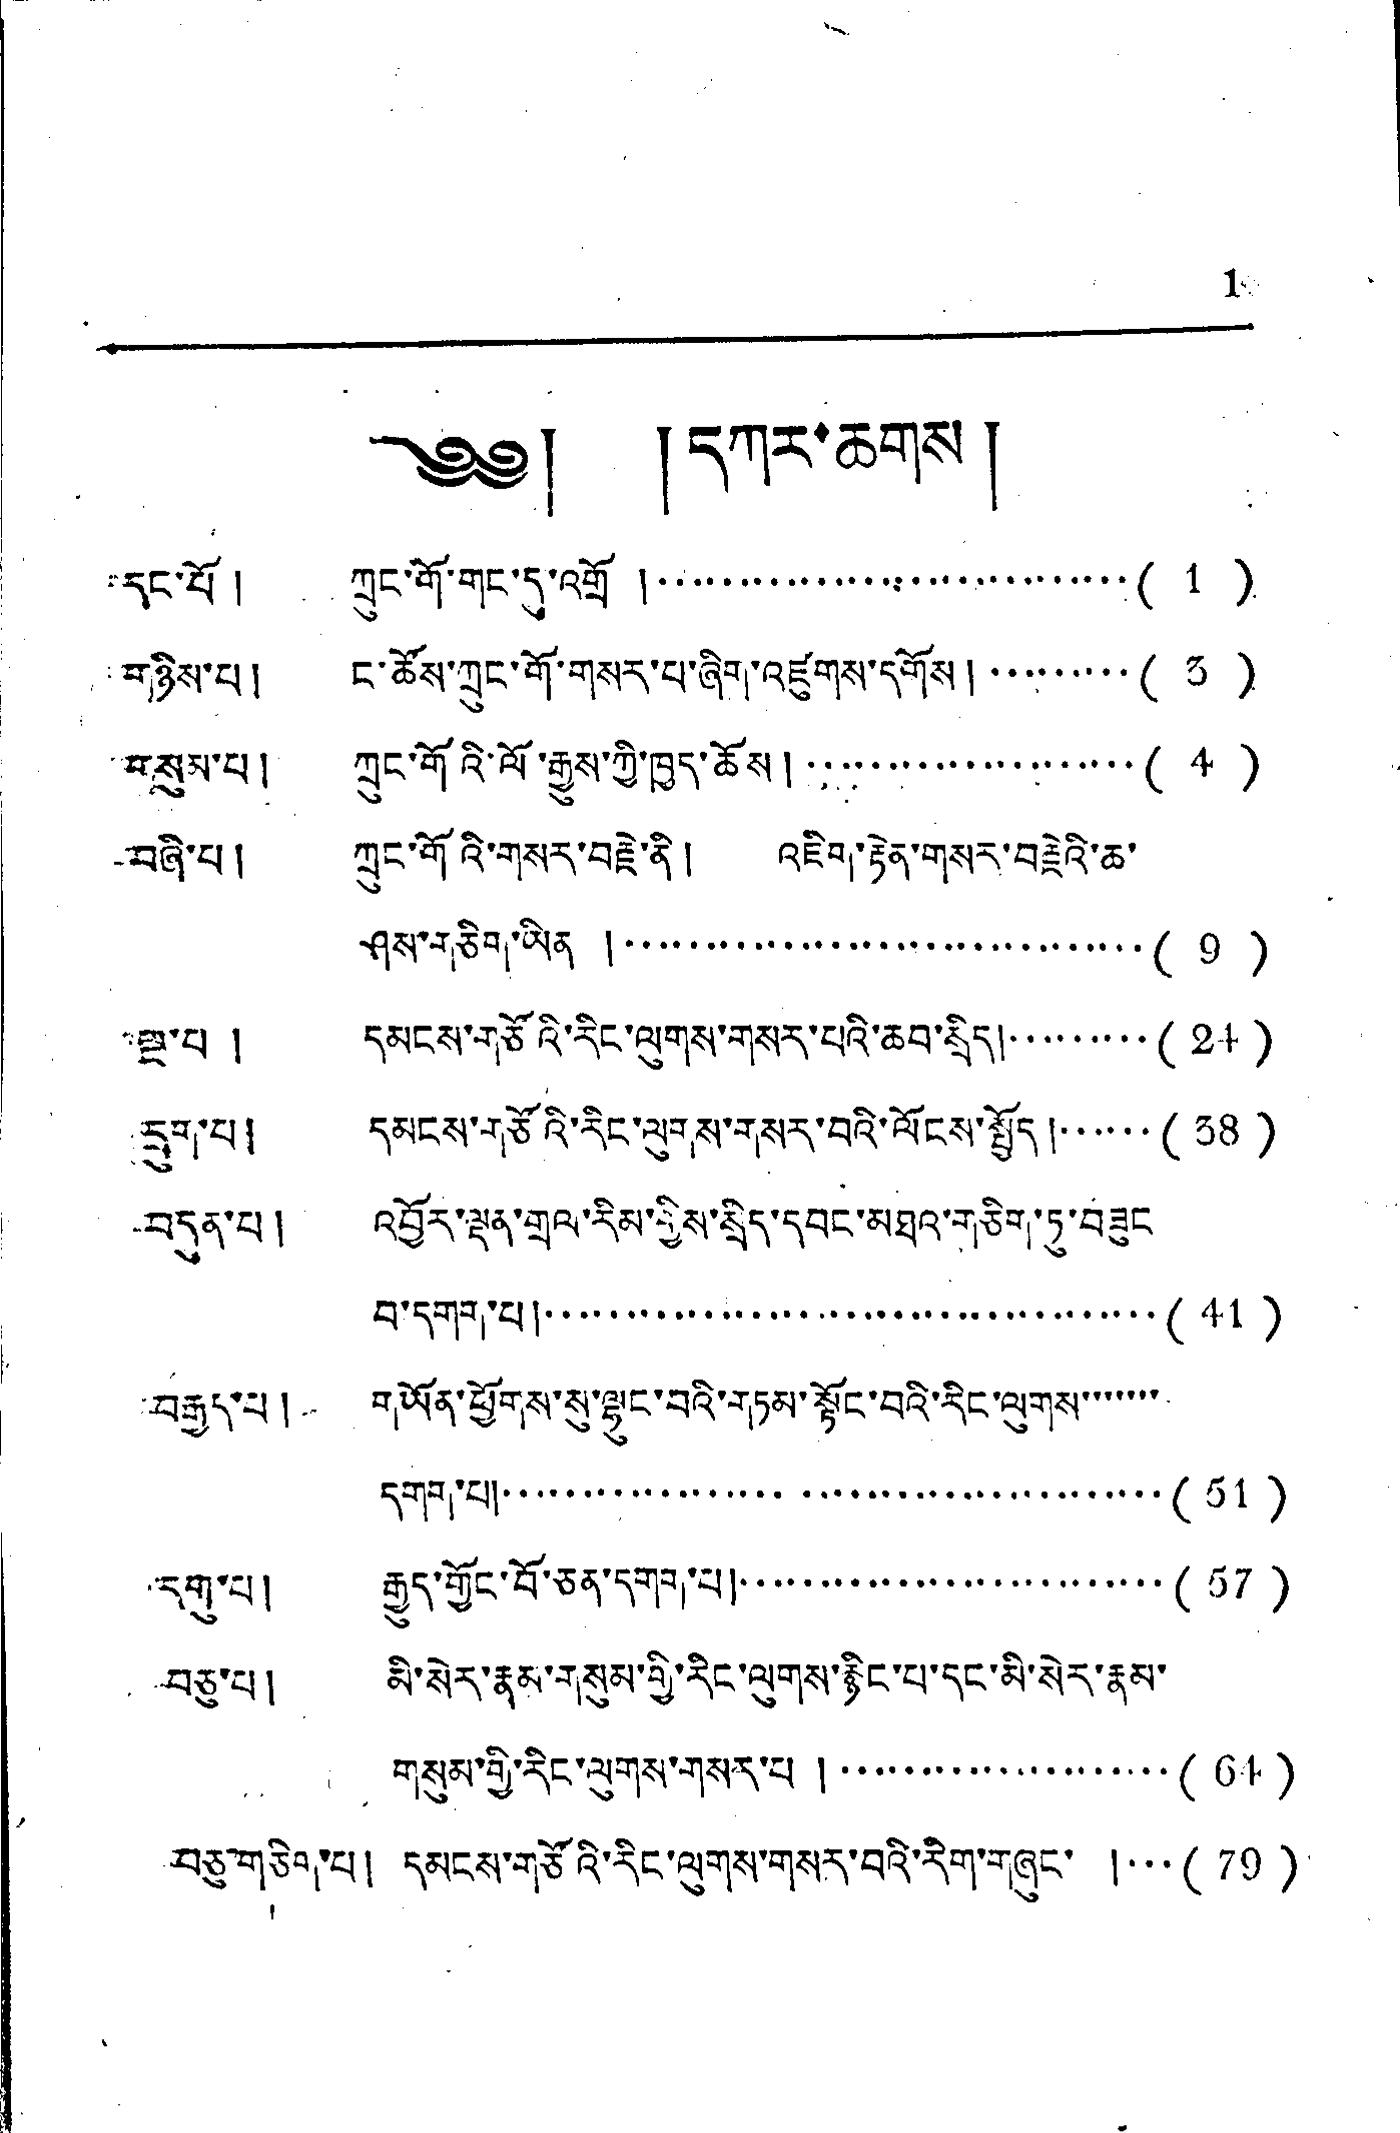1
༄༅། །དཀར་ཆགས།
དང་པོ ། ཀྲུང་གོ་གང་དུ་འགྲོ །...............................（1）
གཉིས་པ། ང་ཚོས་ཀྲུང་གོ་གསར་པ་ཞིག་འཛུགས་དགོས།.........（3）
གསུམ་པ། ཀྲུང་གོའི་ལོ་རྒྱུས་ཀྱི་ཁྱད་ཆོས།....................（4）
བཞི་པ། ཀྲུང་གོའི་གསར་བརྗེ་ནི། འཇིག་རྟེན་གསར་བརྗེའི་ཆ་
ཤས་གཅིག་ཡིན །.................................（9）
སྔ་པ། དམངས་གཙོའི་རིང་ལུགས་གསར་པའི་ཆབ་སྲིད།........（21）
དྲུག་པ། དམངས་གཙོའི་རིང་ལུགས་གསར་བའི་ལོངས་སྤྱོད།.....（38）
བདུན་པ། འབྱོར་ལྡན་གྲལ་རིམ་གྱིས་སྲིད་དབང་མཐའ་གཅིག་ཏུ་བཟུང
བ་དགག་པ།.......................................（41）
བརྒྱད་པ། གཡོན་ཕྱོགས་སུ་ལྷུང་བའི་གཏམ་སྟོང་བའི་རིང་ལུགས་་་་་་་
དགབ་པ།......................................（51）
དགུ་པ། རྒྱུད་གྱོང་བོ་ཅན་དགག་པ།...........................（57）
བཅུ་པ། མི་སེར་རྣམ་གསུམ་གྱི་རིང་ལུགས་རྙིང་པ་དང་མི་སེར་རྣམ་
གསུམ་གྱི་རིང་ལུགས་གསར་པ །....................（64）
བཅུ་གཅིག་པ། དམངས་གཙོའི་རིང་ལུགས་གསར་བའི་རིག་གཞུང་ །...（79）
